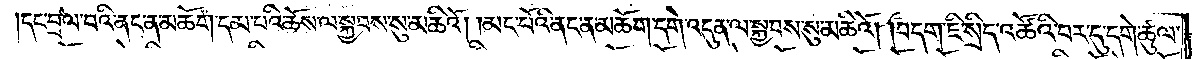དང་བྲལ་བའི་ནང་ན་མཆོག་དམ་པའི་ཆོས་ལ་སྐྱབས་སུ་མཆིའོ། །མང་པོའི་ནང་ན་མཆོག་དགེ་འདུན་ལ་སྐྱབས་སུ་མཆིའོ། །བདག་ཇི་སྲིད་འཚོའི་བར་དུ་དགེ་ཚུལ་
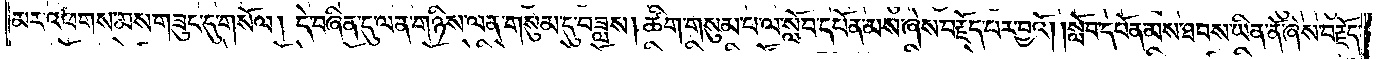མར་འཕགས་མས་གཟུང་དུ་གསོལ། །དེ་བཞིན་དུ་ལན་གཉིས་ལན་གསུམ་དུ་བཟླས། ཚིག་གསུམ་པ་ལ་སློབ་དཔོན་མས་ཞེས་བརྗོད་པར་བྱའོ། །སློབ་དཔོན་མས་ཐབས་ཡིན་ནོ་ཞེས་བརྗོད་
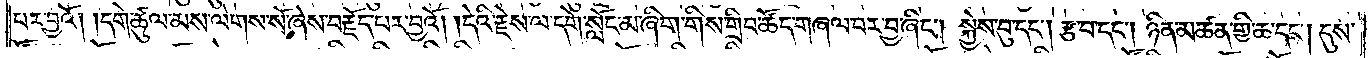པར་བྱའོ། །དགེ་ཚུལ་མས་ལེགས་སོ་ཞེས་བརྗོད་པར་བྱའོ། །དེའི་རྗེས་ལ་དགེ་སློང་མ་ཞིག་གིས་གྲིབ་ཚོད་གཞལ་བར་བྱ་ཞིང༌། སྐྱེས་བུ་དང༌། རྩ་བ་དང༌། ཉིན་མཚན་གྱི་ཆ་དང༌། དུས་
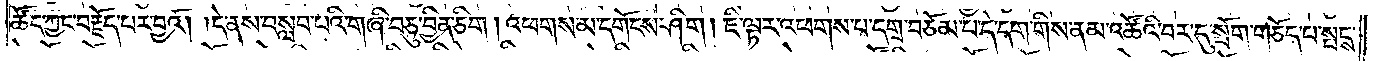ཚོད་ཀྱང་བརྗོད་པར་བྱའོ། །དེ་ནས་བསླབ་པའི་གཞི་བཅུ་བྱིན་ཅིག །འཕགས་མ་དགོངས་ཤིག །ཇི་ལྟར་འཕགས་པ་དགྲ་བཅོམ་པ་དེ་དག་གིས་ནམ་འཚོའི་བར་དུ་སྲོག་གཅོད་པ་སྤངས་
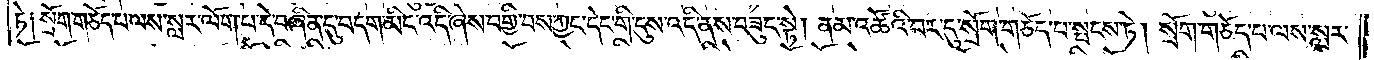ཏེ༑ སྲོག་གཅོད་པ་ལས་སླར་ལོག་པ་དེ་བཞིན་དུ་བདག་མིང་འདི་ཞེས་བགྱི་བས་ཀྱང་དེང་གི་དུས་འདི་ནས་བཟུང་སྟེ། ནམ་འཚོའི་བར་དུ་སྲོག་གཅོད་པ་སྤངས་ཏེ། སྲོག་གཅོད་པ་ལས་སླར་
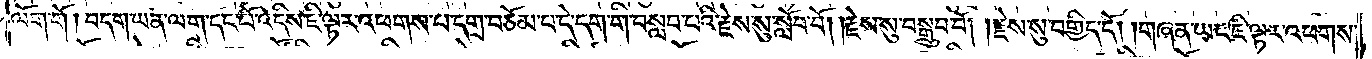ལོག་གོ །བདག་ཡན་ལག་དང་པོ་འདིས་ཇི་ལྟར་འཕགས་པ་དགྲ་བཅོམ་པ་དེ་དག་གི་བསླབ་པའི་རྗེས་སུ་སློབ་བོ། །རྗེས་སུ་བསྒྲུབ་བོ། །རྗེས་སུ་བགྱིད་དོ། །གཞན་ཡང་ཇི་ལྟར་འཕགས་
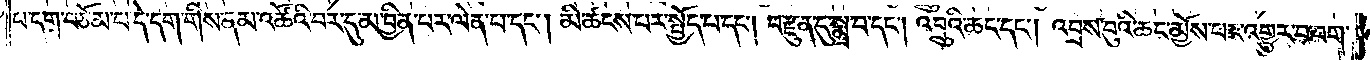པ་དགྲ་བཅོམ་པ་དེ་དག་གིས་ནམ་འཚོའི་བར་དུ་མ་བྱིན་པར་ལེན་པ་དང༌། མི་ཚངས་པར་སྤྱོད་པ་དང༌། བརྫུན་དུ་སྨྲ་བ་དང༌། འབྲུའི་ཆང་དང༌། འབྲས་བུའི་ཆང་མྱོས་པར་འགྱུར་བ་བག་
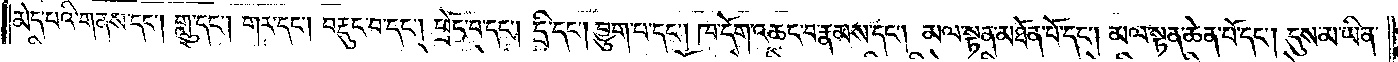མེད་པའི་གནས་དང༌། གླུ་དང༌། གར་དང༌། བརྡུང་བ་དང༌། ཕྲེང་བ་དང༌། དྲི་དང༌། བྱུག་པ་དང༌། ཁ་དོག་འཆང་བ་རྣམས་དང༌། མལ་སྟན་མཐོན་པོ་དང༌། མལ་སྟན་ཆེན་པོ་དང༌། དུས་མ་ཡིན་
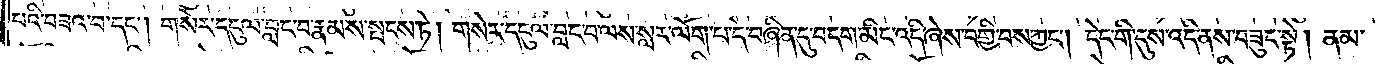པའི་བཟའ་བ་དང༌། གསེར་དངུལ་བླང་བ་རྣམས་སྤངས་ཏེ། གསེར་དངུལ་བླང་བ་ལས་སླར་ལོག་པ་དེ་བཞིན་དུ་བདག་མིང་འདི་ཞེས་བགྱི་བས་ཀྱང༌། དེང་གི་དུས་འདི་ནས་བཟུང་སྟེ། ནམ་
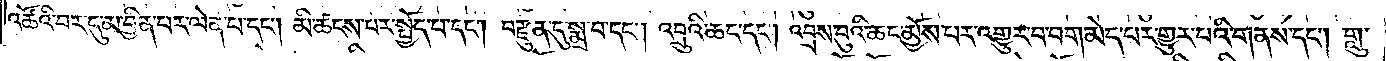འཚོའི་བར་དུ་མ་བྱིན་པར་ལེན་པ་དང༌། མི་ཚངས་པར་སྤྱོད་པ་དང༌། བརྫུན་དུ་སྨྲ་བ་དང༌། འབྲུའི་ཆང་དང༌། འབྲས་བུའི་ཆང་མྱོས་པར་འགྱུར་བ་བག་མེད་པར་གྱུར་པའི་གནས་དང༌། གླུ་
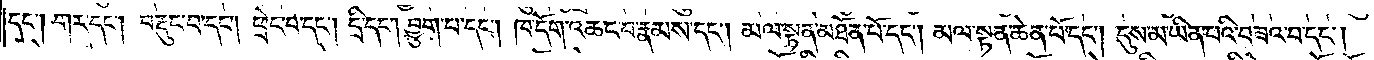དང༌། གར་དང༌། བརྡུང་བ་དང༌། ཕྲེང་བ་དང༌། དྲི་དང༌། བྱུག་པ་དང༌། ཁ་དོག་འཆང་བ་རྣམས་དང༌། མལ་སྟན་མཐོན་པོ་དང༌། མལ་སྟན་ཆེན་པོ་དང༌། དུས་མ་ཡིན་པའི་བཟའ་བ་དང༌།
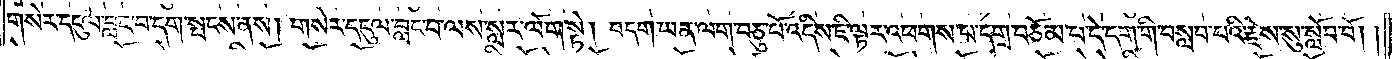གསེར་དངུལ་བླང་བ་དག་སྤངས་ནས། གསེར་དངུལ་བླང་བ་ལས་སླར་ལོག་སྟེ། བདག་ཡན་ལག་བཅུ་པོ་འདིས་ཇི་ལྟར་འཕགས་པ་དགྲ་བཅོམ་པ་དེ་དག་གི་བསླབ་པའི་རྗེས་སུ་སློབ་བོ། །
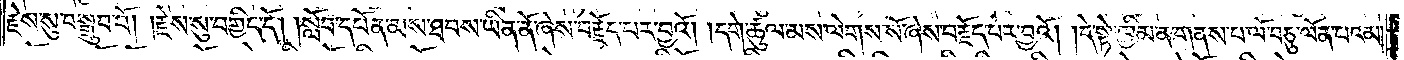རྗེས་སུ་བསྒྲུབ་བོ། །རྗེས་སུ་བགྱིད་དོ། །སློབ་དཔོན་མས་ཐབས་ཡིན་ནོ་ཞེས་བརྗོད་པར་བྱའོ། །དགེ་ཚུལ་མས་ལེགས་སོ་ཞེས་བརྗོད་པར་བྱའོ། །དེ་སྟེ་ཁྱིམ་ན་གནས་པ་ལོ་བཅུ་ལོན་པའམ།
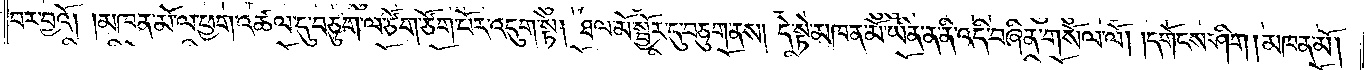བར་བྱའོ། །མཁན་མོ་ལ་ཕྱག་འཚལ་དུ་བཅུག་ལ་ཙོག་ཙོག་པོར་འདུག་སྟེ། ཐལ་མོ་སྦྱོར་དུ་བཅུག་ནས། དེ་སྟེ་མཁན་མོ་ཡིན་ན་ནི་འདི་བཞིན་གསོལ་ལོ། །དགོངས་ཤིག །མཁན་མོ།
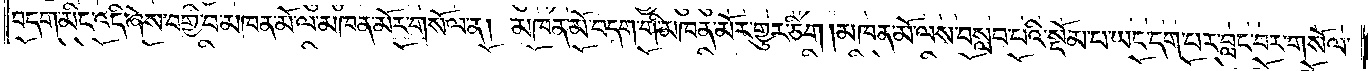བདག་མིང་འདི་ཞེས་བགྱི་བ་མཁན་མོ་ལ་མཁན་མོར་གསོལ་ན། མཁན་མོ་བདག་གི་མཁན་མོར་གྱུར་ཅིག །མཁན་མོ་ལས་བསླབ་པའི་སྡོམ་པ་ཡང་དག་པར་བླང་བར་གསོལ་
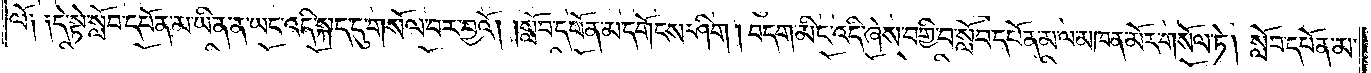ལོ༑ ༑དེ་སྟེ་སློབ་དཔོན་མ་ཡིན་ན་ཡང་འདི་སྐད་དུ་གསོལ་བར་བྱའོ། །སློབ་དཔོན་མ་དགོངས་ཤིག །བདག་མིང་འདི་ཞེས་བགྱི་བ་སློབ་དཔོན་མ་ལ་མཁན་མོར་གསོལ་ཏེ། སློབ་དཔོན་མ་
